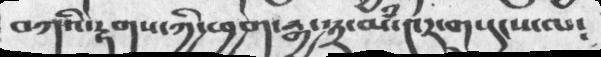བཀའི་རྟགས་ཀྱི་ཕྱག་རྒྱ་༣་མཾ་༤ར་གསུངས་ལ༴
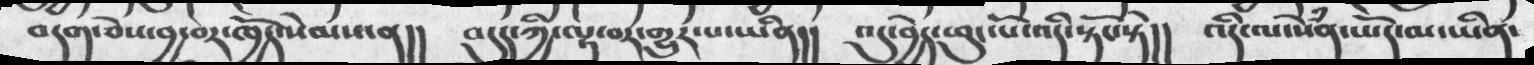བདག་ཅེས་བྱ་བར་ཁྱོད་སེམས་ན།།    བདུད་ཀྱི་ལྟ་བར་གྱུར་པ་ཡིན།།   འདུ་བྱེད་ཕུང་པོ་འདི་སྟོང་སྟེ།།    འདི་ལ་སེྃན་ཡོད་མ་ཡིན་
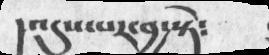།འདུས་པརད་བྱ་སྟེ༴
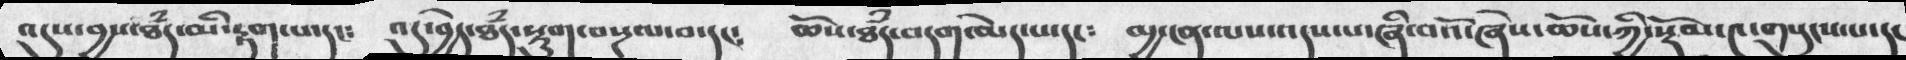འདུས་བྱས་ཐཾད་མི་རྟག་པ་དང༴   འདུ་བྱེད་ཐཾད་སྡུག་བསྔལ་བ་དང༴     ཆོས་ཐཾད་བདག་མེད་པ་དང༴    མྱ་ངན་ལས་འདས་པ་ཞི་བའོ་ཞེས་ཆོས་ཀྱི་སྡོམ་༤་གསུངས་པ་དང
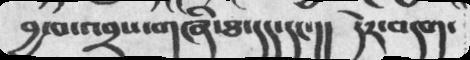བྱ་བ་འབྲས་གཞི་ཐ་དད་དང་།།  དེར་བདག་
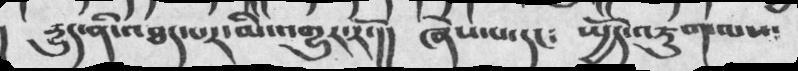དྱུད་ནི་འཐད་པར་མི་འགྱུར་རོ་།།  ཞེས་པ་དང༴  སྤྱོད་འཇུག་ལས༴
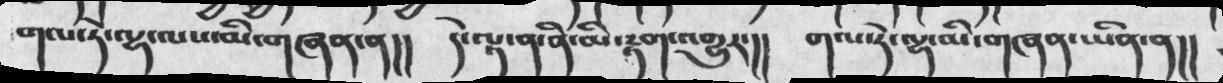གལ་ཏེ་ལྡ་ལས་མི་གཞན་ན།།  དེ་ལྟ་ན་ནི་མི་ལྟག་འགྱུར་།།  གལ་ཏེ་ལྡ་མི་གཞན་ཡིན་ན།།
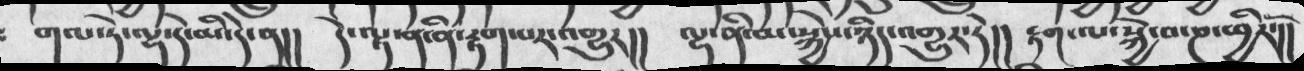གལ་ཏེ་ལྡ་དེ་མི་དེ་ན།།  དེ་ལྟ་ན་ནི་རྟག་པར་འགྱུར།།  ལྡ་ནི་མ་སྐྱེས་ཉིད་འགྱུར་དེ།།  རྟག་ལ་སྐྱེ་བ་ཎ་ཕྱིརོ་།།
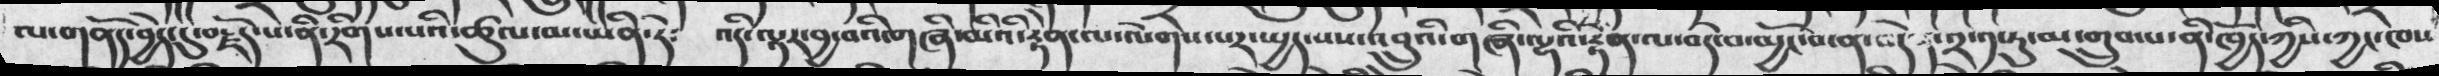ལ་གནོད་བྱེད་དུ་བརྗོད་པ་ནི་རིགས་པའི་ཚུལ་མ་ཡིན་ཏེ༴   འདི་ལྟར་བྱ་བའི་གཞི་མིའི་རྟེན་ལ་ལོགས་པར་སྤྱད་པས་འབྲུའི་གཞི་ལྷའི་རྟེན་ལ་བདེ་བ་མྱོང་བ་ན་བདེན་༢་༡་ཏུ་མ་གྲུབ་པ་ནི་ཁྱོད་ཀྱིས་ཀྱང་ཁས
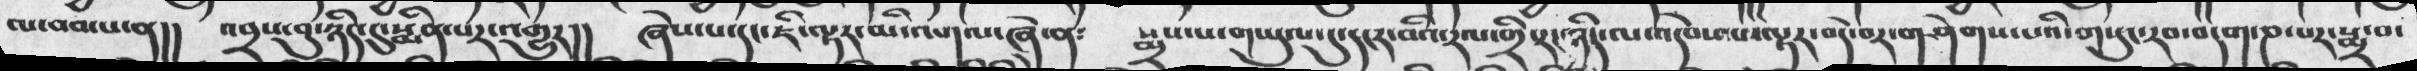ལ་བམ་པ་ན།།  འབྲས་བུ་ཉིད་དུ་སྨིན་པར་འགྱུར།།  ཞེས་པ་དང་ཇི་ལྟར་མི་འགལ་ཞེ་ན༴   སྨྲས་པ་གཡུལ་དུ་དངར་བའི་རལ་གྲི་རང་ཉིད་ལ་འདེབས་པ་ལྟར་བདེ་བར་གཤེགས་པའི་གསུང་རབ་བདག་ཎ་པར་སྨྲ་བ་
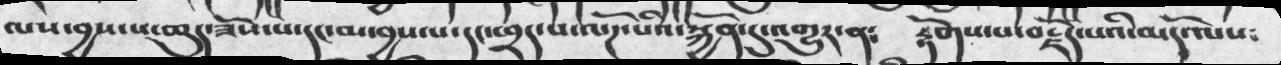ལས་བྱས་པ་ཆུད་ཟོས་པ་དང་མ་བྱས་པ་དང་ཕྲད་པ་ལོཌ་པའི་སྐྱོན་དུ་འགྱུར་ན༴  རྟོགས་པ་བརྗོད་པའི་མདོ་ལས༴
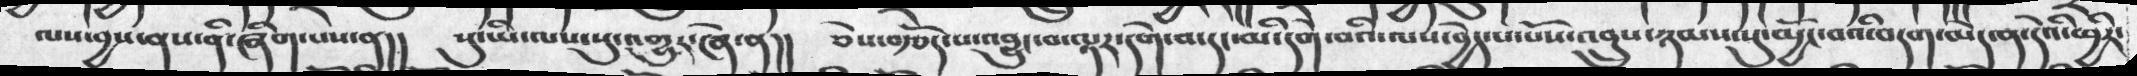ལས་བྱས་ནས་ནི་ཞིག་པས་ན།།  སུ་ཡི་ལས་སུ་འགྱུར་ཞེ་ན།།  ཅེས་བརྩོད་པ་འབྱུང་ན་ལྟར་དགེ་བ་དང་མི་དགེ་བའི་ལས་བྱེད་པ་པོས་འབྲུས་ཉམས་སུ་མྱོང་བའི་བདག་མེད་དེའི་ཕྱིར་
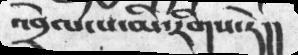འབྲེལ་པ་མི་རིགས་ཏེ།།
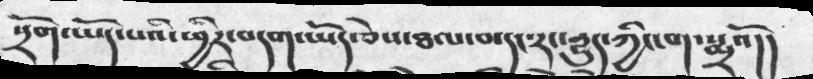སྲོག་ཡོད་པའི་ཕྱིར་བདག་ཡོད་ཅེས་ཐལ་བ་དང་རང་རྒྱུད་ཀྱི་ངག་སྨྲའོ།།
